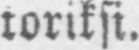toriksi.
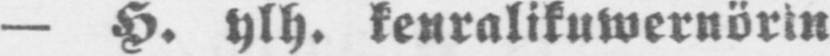— H. ylh. kenralikuwernörin
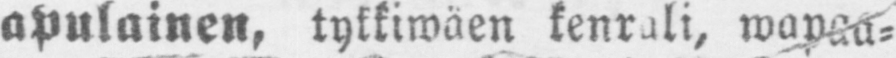apulainen, tykkiwäen kenrali, wapaa-
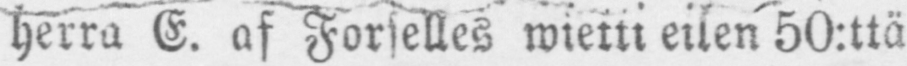herra E. af Forselles wietti eilen 50:ttä
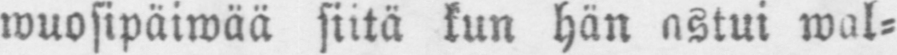wuosipäiwää siitä kun hän istui wal-
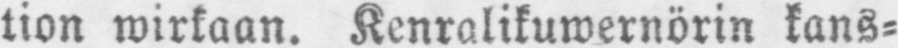tion wirkaan. Kenralikuwernörin kans-
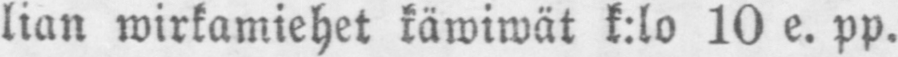lian wirkamiehet käwiwät k:lo 10 e. pp.
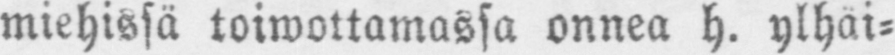miehissä toiwottamassa onnea h. ylhäi-
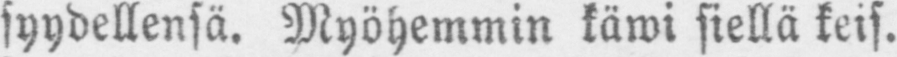syydellensä. Myöhemmin käwi siellä keis.
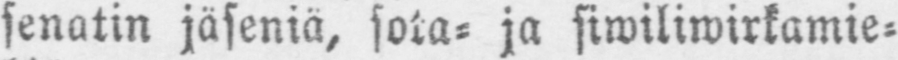senatin jäseniä, sota- ja siwiliwirkamie-
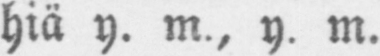hiä y. m., y. m.
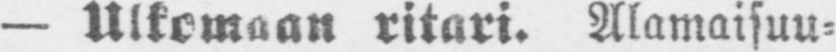— Ulkomaan ritari. Alamaisuu-
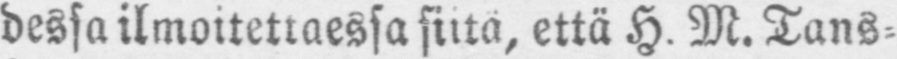dessa ilmoitettaessa siitä, että H. M. Tans-
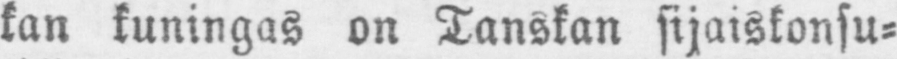kan kuningas on Tanskan sijaiskonsu-
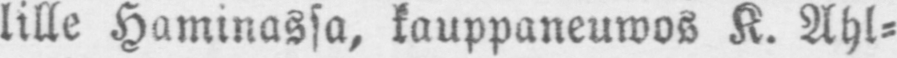lille Haminassa, kauppaneuwos K. Ahl-
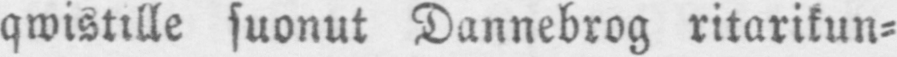qwistille suonut Dannebrog ritarikun-
